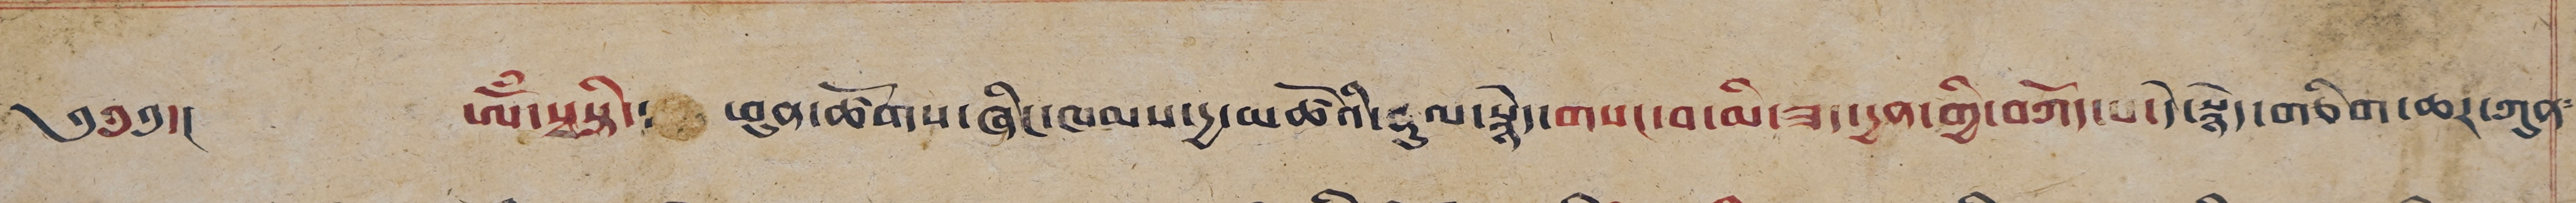༄༅༅།། ཨོཾ་སྭསྟི་༴ ཕུན་ཚོགས་ཞིང་ཁམས་དྱ་མཚོའི་རྡུལ་སྙེད་གསང་བ་མི་ཟད་དྱན་གྱི་བཀོད་པ་དེ་སྙེད་གཅིག་ཆར་ཀུན༴
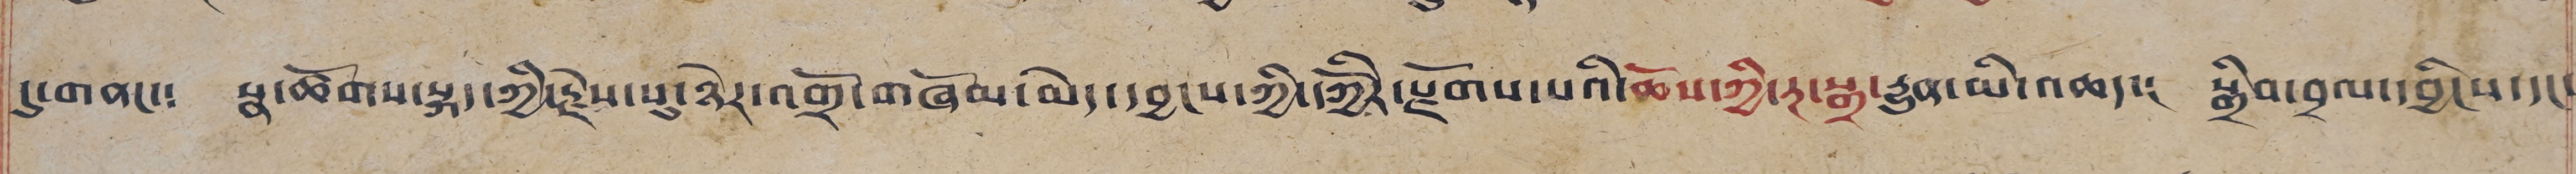དུ་གནང་༴ སྣ་ཚོགས་སྐད་ཀྱི་རྗེས་སུ་ཉེར་འགྲོ་གཞོམ་མེད་དབྱངས་ཀྱི་དཀྱོརི་རྫོགས་པའི་ཆོས་ཀྱི་རྔ་སྒྲ་རྒྱུན་མི་འཆད་༴ སྒྲིབ་བྲལ་དབྱིངས་དང་
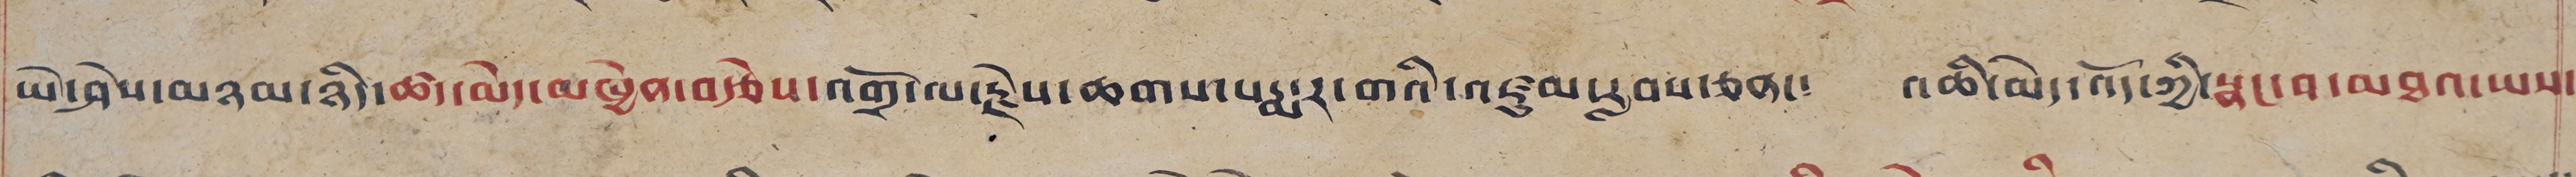ཡེ་ཤེས་མཉམ་ཉིད་ཚད་མེད་མཁྱེན་བརྩེས་འགྲོ་ལ་རྗེས་ཆགས་པདྨ་ར་གའི་འཛུམ་རླབས་ཅན་༴ འཆི་མེད་འོད་ཀྱི་སྣང་བ་མཐའ་ཡས་
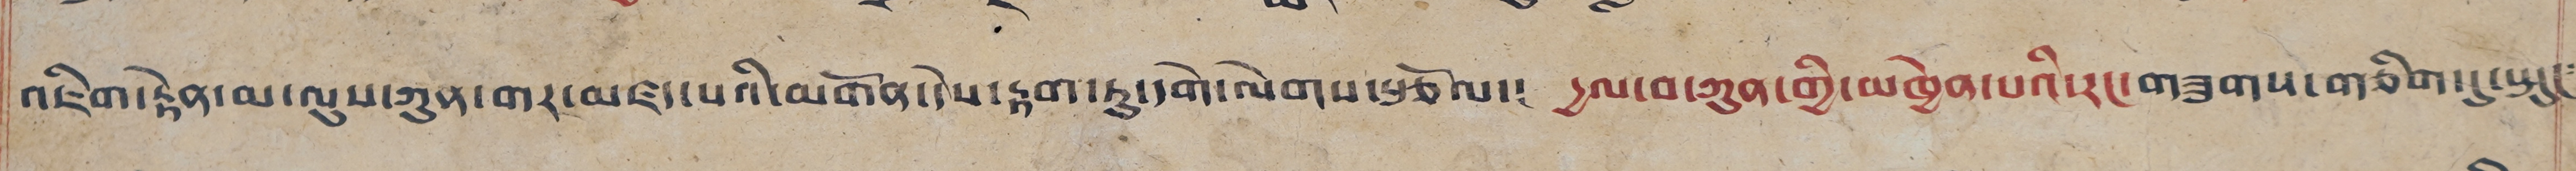འཇིག་རྟེན་མ་ལུས་ཀུན་གར་མཛད་པའི་མགོན་དེས་རྟག་ཏུ་དགེ་ལེགས་རྩོལ་༴ དྱལ་བ་ཀུན་གྱི་མཁྱེན་པའི་རང་གཟུགས་གཅིག་དུ་སྤུང༴
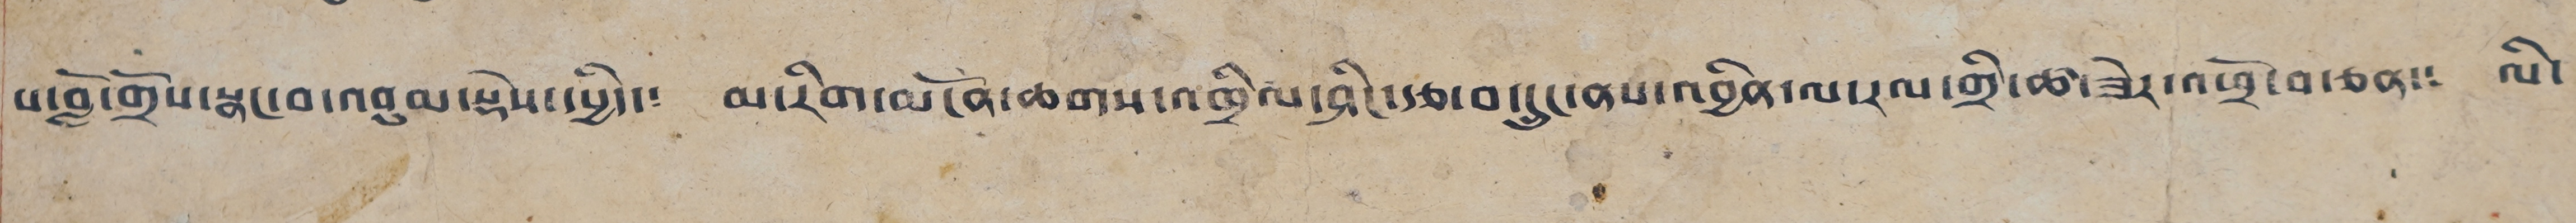པ་བློ་གྲོས་སྣང་བ་འབུམ་སྡེས་དཔྱིད་༴ མ་རིག་མངོན་ཆགས་འཁྲིལ་ཤིང་རྩ་བ་དྲུང་ནས་འབྱིན་ལ་རལ་གྲི་ཚ་ཟེར་འཕྲོ་བ་ཅན་༴ ལི་
